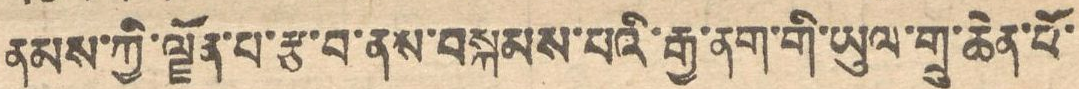ནམས་ཀྱི་སྗོན་པ་རྩ་བ་ནས་བསྐབས་པའི་རྒྱ་ནག་གི་ཡུལ་གྲུ་ཆེན་པོ་
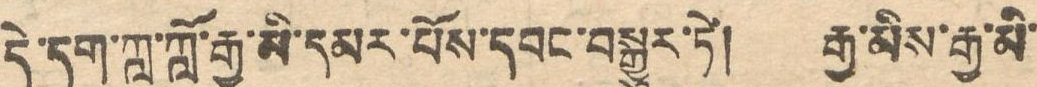དེ་དག་ཀླ་ཀློ་རྒྱ་མི་དམར་པོས་དབང་བསྒྱུར་ཏེ། རྒྱ་མིས་རྒྱ་མི་
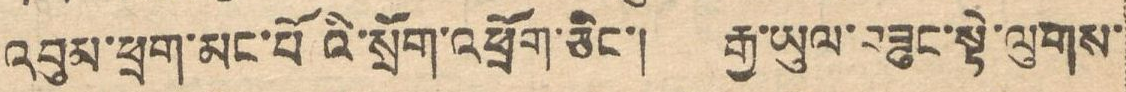འབུམ་ཕྲག་མང་པོའི་སྲོག་འཕྲོག་ཅིང་། རྒྱ་ཡུལ་བཟུང་སྟེ་ལུགས་
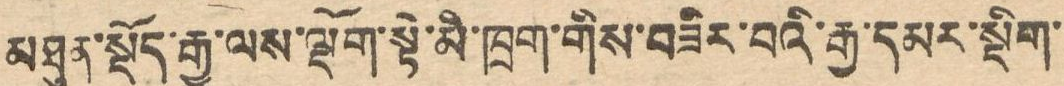མཐུན་སྡོད་རྒྱུ་ལས་ལྡོག་སྟེ་མི་ཁྲག་གིས་བཟིར་བའི་རྒྱ་དམར་སྡིག་
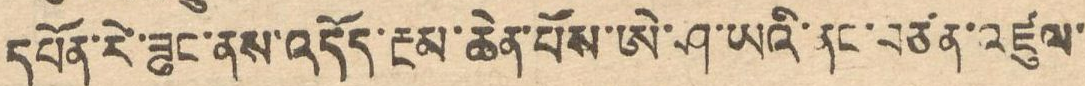དཔོན་རེ་ཟུར་ནས་འདོད་རྔམ་ཆེན་པོས་ཨེ་ཤ་ཡའི་ནང་བཙན་འཛུལ་
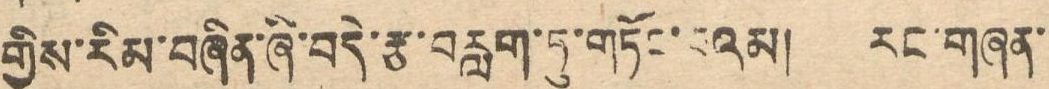གྱིས་རིམ་བཞིན་ཞི་བདེ་རྩ་བརླག་ཏུ་གཏོང་པའམ། རང་གཞན་
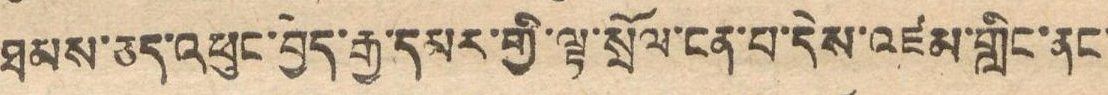ཐམས་ཅད་འཕུང་བྱེད་རྒྱ་དམར་གྱི་ལྟ་སྲོལ་ངན་པ་དེས་འཛམ་གླིང་ནང་
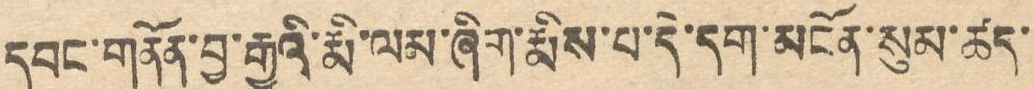དབང་གནོན་བྱ་རྒྱུའི་རྨི་ལམ་ཞིག་རྨིས་པ་དེ་དག་མངོན་སུམ་ཚད་
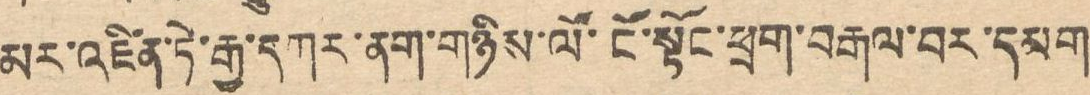མར་འཛིན་ཏེ་རྒྱ་དཀར་ནག་གཉིས་ལོ་ངོ་སྟོང་ཕྲག་བརྒལ་བར་དམག
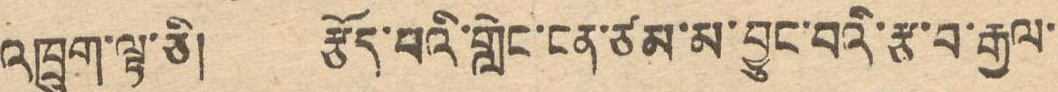འཁྲུག་ལྟ་ཅི། རྩོད་པའི་གླིང་ངན་ཙན་མ་བྱུང་བའི་རྩ་བ་རྒྱལ་
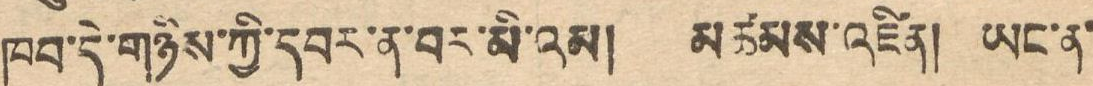ཁབ་དེ་གཉིས་ཀྱི་དབར་ན་བར་མི་འམ། མཚམས་འཛིན། ཡང་ན་
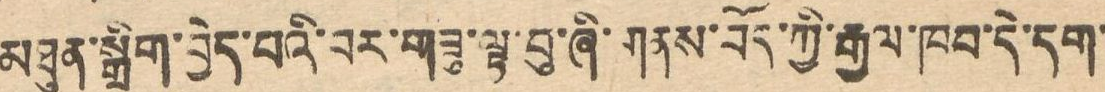མཐུན་སྒྲིག་བྱེད་པའི་བར་གཟུ་ལྟ་བུ་ཞི་གནས་བོད་ཀྱི་རྒྱལ་ཁབ་དེ་དག་
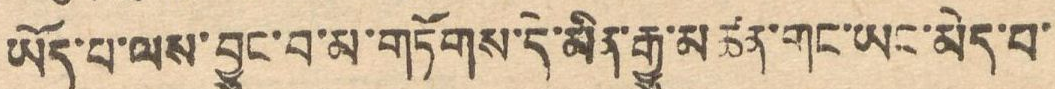ཡོད་པ་ལས་བྱང་བ་མ་གཏོགས་དེ་མིན་རྒྱུ་མཚན་གང་ཡང་མེད་པ་
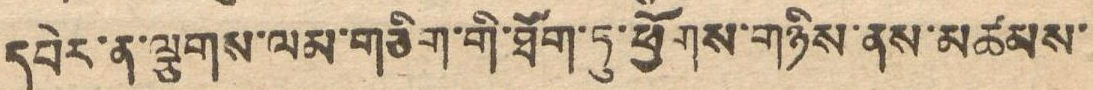དཔེར་ན་ལྕགས་ལམ་གཅིག་གི་ཐོག་ཏུ་ཕྱོགས་གཉིས་ནས་མཚམས་
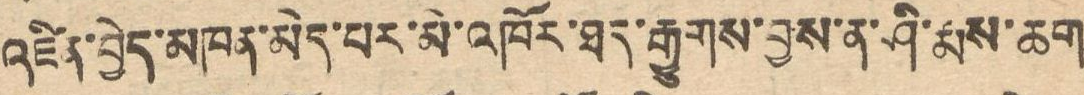འཛིན་བྱེད་མཁན་མེད་པར་མེ་འཁོར་ཐད་རྒྱུགས་བྱས་ན་ཤི་རྨས་ཆག
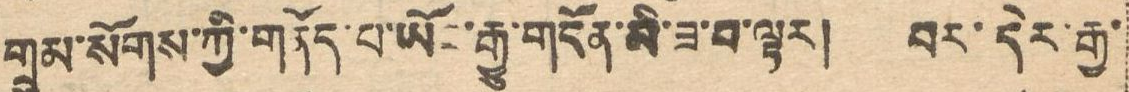གྲུམ་སོགས་ཀྱི་གནོད་པ་ཡོང་རྒྱུ་གདོན་མི་ཟ་བ་ལྟར། བར་དེར་རྒྱ་
